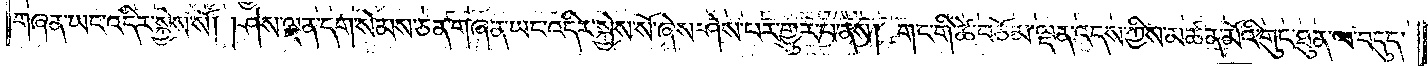གཞན་ཡང་འདིར་སྐྱེས་སོ། །ཤེས་ལྡན་དག་སེམས་ཅན་གཞན་ཡང་འདིར་སྐྱེས་སོ་ཞེས་ཤེས་པར་གྱུར་པ་ནས། གང་གི་ཚེ་བཅོམ་ལྡན་འདས་ཀྱིས་མཚན་མོའི་གུང་ཐུན་ལ་བདུད་
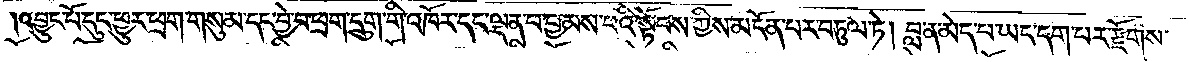འབྱུང་པོ་དུང་ཕྱུར་ཕྲག་གསུམ་དང་བྱེ་བ་ཕྲག་དྲུག་གི་འཁོར་དང་ལྡན་པ་བྱམས་པའི་སྟོབས་ཀྱིས་མངོན་པར་བཏུལ་ཏེ། བླ་ན་མེད་པ་ཡང་དག་པར་རྫོགས་
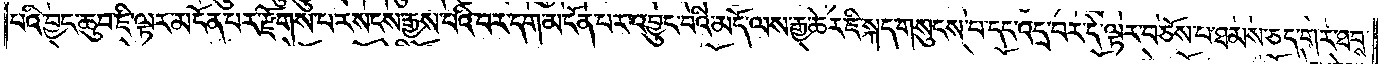པའི་བྱང་ཆུབ་ཇི་ལྟར་མངོན་པར་རྫོགས་པར་སངས་རྒྱས་པའི་བར་དག་མངོན་པར་འབྱུང་བའི་མདོ་ལས་རྒྱ་ཆེར་ཇི་སྐད་གསུངས་པ་དང་འདྲ་བར་དེ་ལྟར་བཅོས་པ་ཐམས་ཅད་གར་ཐབས་
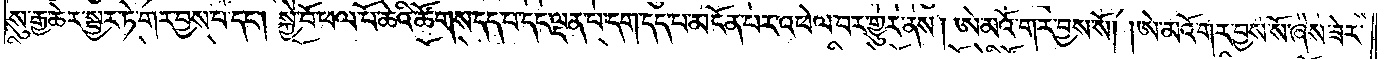སུ་རྒྱ་ཆེར་སྦྱར་ཏེ་གར་བྱས་པ་དང༌། སྐྱེ་བོ་ཕལ་པོ་ཆེའི་ཚོགས་དད་པ་དང་ལྡན་པ་དག་དད་པ་མངོན་པར་འཕེལ་བར་གྱུར་ནས། ཨེ་མའོ་གར་བྱས་སོ། །ཨེ་མའོ་གར་བྱས་སོ་ཞེས་ཟེར་
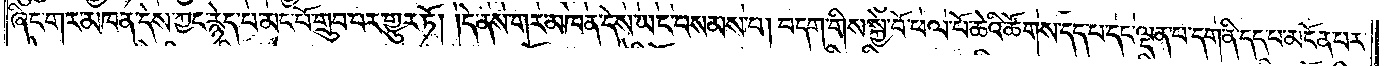ཞིང་གར་མཁན་དེས་ཀྱང་རྙེད་པ་མང་པོ་གྲུབ་པར་གྱུར་ཏོ། །དེ་ནས་གར་མཁན་དེས་ཡང་བསམས་པ། བདག་གིས་སྐྱེ་བོ་ཕལ་པོ་ཆེའི་ཚོགས་དད་པ་དང་ལྡན་པ་དག་ནི་དད་པ་མངོན་པར་
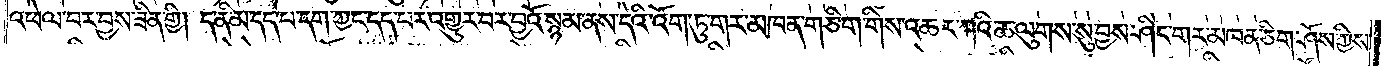འཕེལ་བར་བྱས་ཟིན་གྱི། ད་ནི་མ་དད་པ་དག་ཀྱང་དད་པར་འགྱུར་བར་བྱའོ་སྙམ་ནས་དེའི་འོག་ཏུ་གར་མཁན་གཅིག་གིས་འཆར་ཀའི་ཆ་ལུགས་སུ་བྱས་ཤིང་གར་མཁན་ཅིག་ཤོས་ཀྱིས་
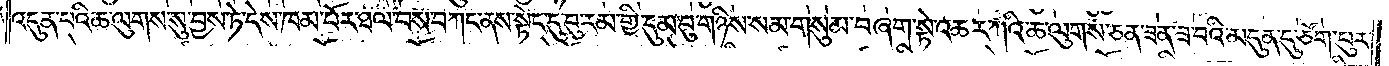འདུན་པའི་ཆ་ལུགས་སུ་བྱས་ཏེ་དེས་ཁམ་པོར་ཐལ་བས་བཀང་ནས་སྟེང་དུ་བུ་རམ་གྱི་དུམ་བུ་གཉིས་སམ་གསུམ་བཞག་སྟེ་འཆར་ཀའི་ཆ་ལུགས་ཅན་ཟན་ཟ་བའི་མདུན་དུ་ཙོག་པུར་
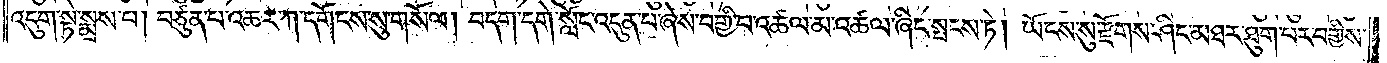འདུག་སྟེ་སྨྲས་པ། བཙུན་པ་འཆར་ཀ་དགོངས་སུ་གསོལ། བདག་དགེ་སློང་འདུན་པ་ཞེས་བགྱི་བ་འཚལ་མ་འཚལ་ཞིང་སྤངས་ཏེ། ཡོངས་སུ་རྫོགས་ཤིང་མཐར་ཐུག་པར་བགྱིས་
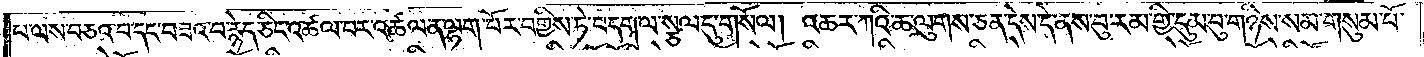པ་ལས་བཅའ་བ་དང་བཟའ་བ་རྙེད་ཅིང་འཚལ་བར་འཚལ་ན་ལྷག་པོར་བགྱིས་ཏེ་བདག་ལ་སྩལ་དུ་གསོལ། འཆར་ཀའི་ཆ་ལུགས་ཅན་དེས་དེ་ནས་བུ་རམ་གྱི་དུམ་བུ་གཉིས་སམ་གསུམ་པོ་
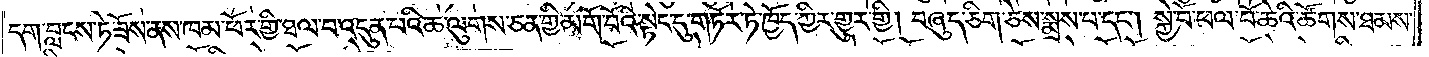དག་བླངས་ཏེ་ཟོས་ནས་ཁམ་ཕོར་གྱི་ཐལ་བ་འདུན་པའི་ཆ་ལུགས་ཅན་གྱི་མགོ་བོའི་སྟེང་དུ་གཏོར་ཏེ་ཁྱོད་ཀྱིར་གྱུར་གྱི། བཞུད་ཅིག་ཅེས་སྨྲས་པ་དང༌། སྐྱེ་བོ་ཕལ་པོ་ཆེའི་ཚོགས་ཐམས་
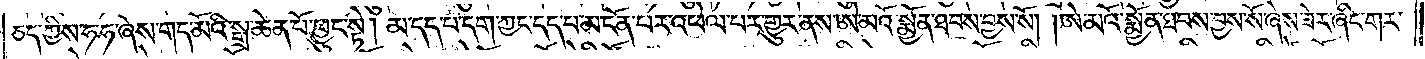ཅད་ཀྱིས་ཧ་ཧ་ཞེས་གད་མོའི་སྒྲ་ཆེན་པོ་ཕྱུང་སྟེ། མ་དད་པ་དག་ཀྱང་དད་པ་མངོན་པར་འཕེལ་བར་གྱུར་ནས་ཨེ་མའོ་སྨྱོན་ཐབས་བྱས་སོ། །ཨེ་མའོ་སྨྱོན་ཐབས་བྱས་སོ་ཞེས་ཟེར་ཞིང་གར་
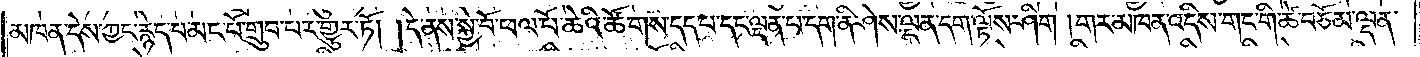མཁན་དེས་ཀྱང་རྙེད་པ་མང་པོ་གྲུབ་པར་གྱུར་ཏོ། །དེ་ནས་སྐྱེ་བོ་ཕལ་པོ་ཆེའི་ཚོགས་དད་པ་དང་ལྡན་པ་དག་ནི་ཤེས་ལྡན་དག་ལྟོས་ཤིག །གར་མཁན་འདིས་གང་གི་ཚེ་བཅོམ་ལྡན་
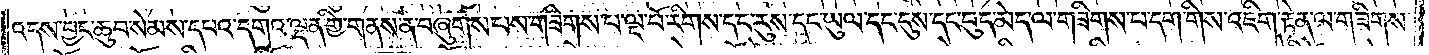འདས་བྱང་ཆུབ་སེམས་དཔའ་དགའ་ལྡན་གྱི་གནས་ན་བཞུགས་པས་གཟིགས་པ་ལྔ་པོ་རིགས་དང་རུས་དང་ཡུལ་དང་དུས་དང་བུད་མེད་ལ་གཟིགས་པ་དག་གིས་འཇིག་རྟེན་ལ་གཟིགས་
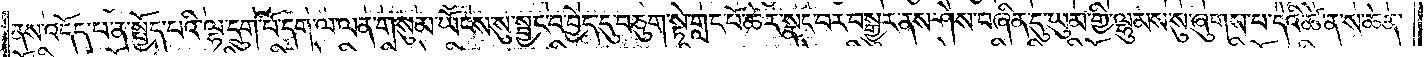ནས་འདོད་པ་ན་སྤྱོད་པའི་ལྷ་དྲུག་པོ་དག་ལ་ལན་གསུམ་ཡོངས་སུ་སྦྱང་བ་བྱེད་དུ་བཅུག་སྟེ་གླང་པོ་ཆེར་སྣང་བར་བསྒྱུར་ནས་ཤེས་བཞིན་དུ་ཡུམ་གྱི་ལྷུམས་སུ་ཞུགས་པ་དེའི་ཚེ་ན་ས་ཆེན་
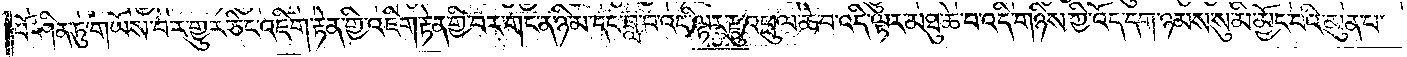པོ་ཤིན་ཏུ་གཡོས་བར་གྱུར་ཅིང་འཇིག་རྟེན་གྱི་འཇིག་རྟེན་གྱི་བར་གང་ན་ཉི་མ་དང་ཟླ་བ་འདི་ལྟར་རྫུ་འཕྲུལ་ཆེ་བ་འདི་ལྟར་མཐུ་ཆེ་བ་འདི་གཉིས་ཀྱི་འོད་དག་ཉམས་སུ་མི་མྱོང་བའི་མུན་པ་
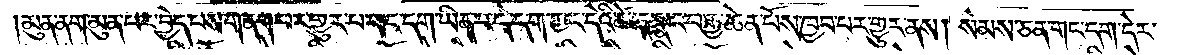།མུན་ནག་མུན་པར་བྱེད་པས་གནག་པར་གྱུར་པ་གང་དག་ཡིན་པ་དེ་དག་ཀྱང་དེའི་ཚེ་ན་སྣང་བ་རྒྱ་ཆེན་པོས་ཁྱབ་པར་གྱུར་ནས། སེམས་ཅན་གང་དག་དེར་
